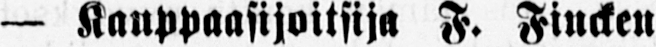— Kauppaasijoitsija A. Fincken
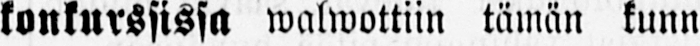konkurssissa walwottiin tämän kunn
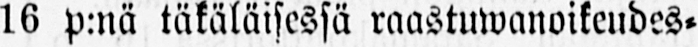16 p:nä täkäläisessä raastuwanoikeudes-
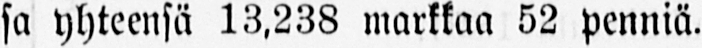sa yhteensä 13,238 markkaa 52 penniä.
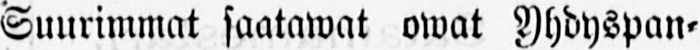Suurimmat saatawat owat Yhdyspan-
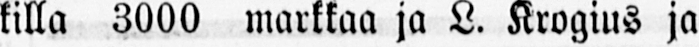killa 3000 markkaa ja L. Krogius ja
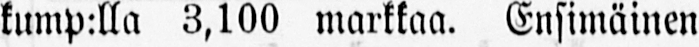kump:lla 3,100 markkaa. Ensimäinen
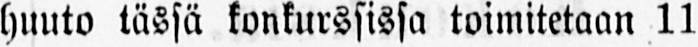huuto tässä konkurssissa toimitetaan 11
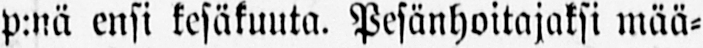p:nä ensi kesäkuuta. Pesänhoitajaksi mää-
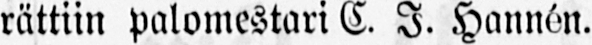rättiin palomestari C. I. Hannén.
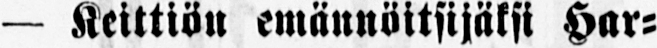— Keittiön emännöitsijäksi Har-
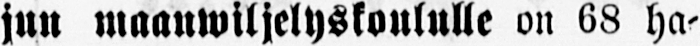jun maanwiljelyskoululle on 68 ha-
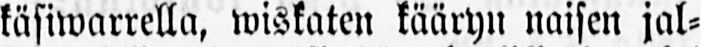käsiwarrella, wiskaten kääryn naisen jal-
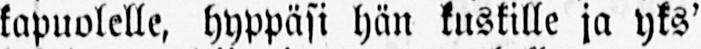kapuolelle, hyppäsi hän kuskille ja yks'
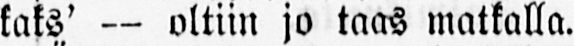kaks' — oltiin jo taas matkalla.
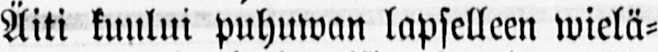Äiti kuului puhuwan lapselleen wielä-
